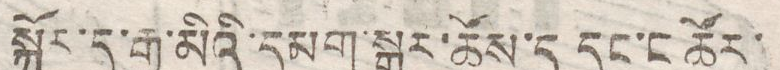སྐོར་དུ་རྒྱ་མིའི་དམག་སྒར་ཚོས་ད་དུང་ང་ཚོར་
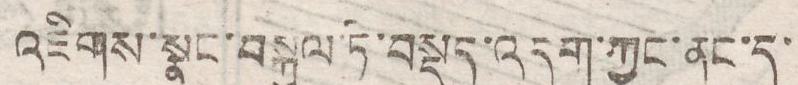འཇིགས་སྣང་བསྐུལ་ཏེ་བསྡད་འདུག་ཀྱང་ནང་དུ་
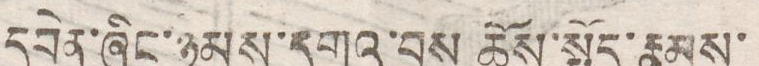དབེན་ཞིང་ཉམས་དགའ་བས ཆོས་སྤྱོད་རྣམས་
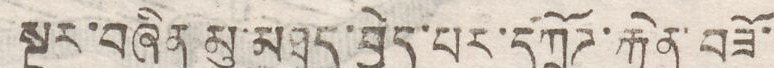སྔར་བཞིན་མུ་མཐུད་བྱེད་པར་དཀྲོཌ་རྐྱེན་བཟོ་
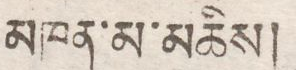མཁན་མ་མཆིས།
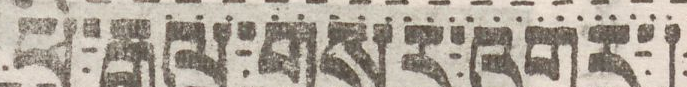ཕྱི་རྒྱལ་གསར་འགྱུར་།
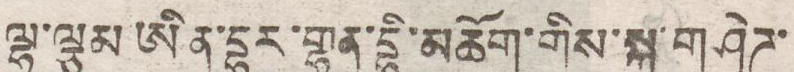ལྷ་ལྕམ ཨིན་དྷར་གྷན་དྷི་མཆོག་གིས་སྐུ་གཤེཌ་
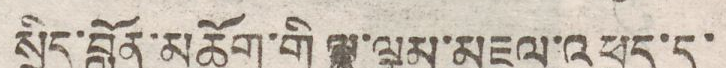སྲིད་བློན་མཆོག་གི ལྷ་ལྕམ་མཇལ་འཕྲད་ད་
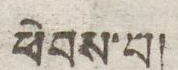ཕེབས་པ།
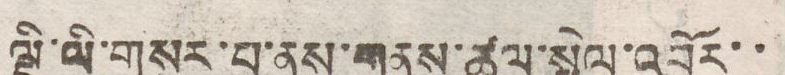ལྡི་ལི་གསར་པ་ནས་གནས་ཚུལ་སྤེལ་འབྱོལ་་
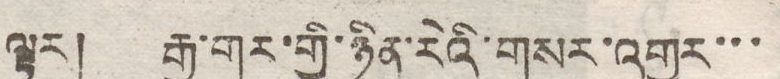ལྟར། རྒྱ་གར་གྱི་ཉིན་རེའི་གསར་འགྱུར་་་
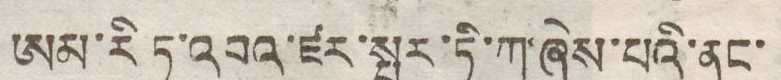ཨམ་རི ཏ་འབའ་ཛར་སྤར་ཏི་ཀ་ཞེས་པའི་ནང་
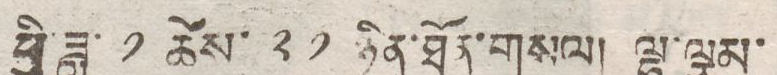ཕྱི་ཟླ་ ༡ ཚེས་ ༢༡ ཉིན་ཐོན་གསལ། ལྷ་ལྕམ་
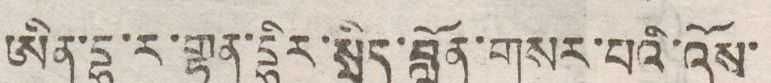ཨིན་དྷ་ར་གྷན་དྷིར་སྲིད་བློན་གསར་པའི་འོས་
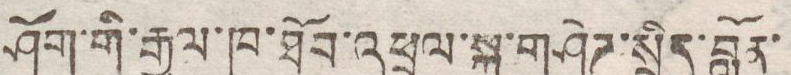ཤོག་གི་རྒྱལ་ཁ་ཐོབ་འཕྲལ་སྐུ་གཤེཌ་སྲིད་བློན་
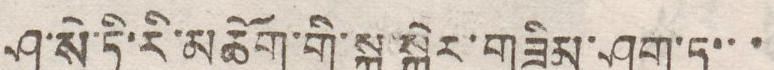ཤ་སེ་ཏི་རི་མཆོག་གི་སྐུ་སྒེར་གཟིམ་ཤག་ཏུ་་་
